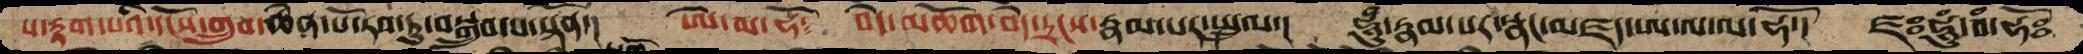ས་རྟག་པའི་དངོས་གྲུབ་ཆེན་པོ་རབ་ཏུ་བསྒྲུབ་པ་སྟོན་། ཨེ་མ་ཧོ་   བདེ་མཆོག་བདེ་དྲངས་རྣམ་པར་སྤྲུལ་།  ཧཱུཾ་རྣམ་པར་སྣང་མཛད་ཨ་ལ་ལ་ཧོ་།  ཛཿཧཱུཾ་བཾ་ཧོཿ
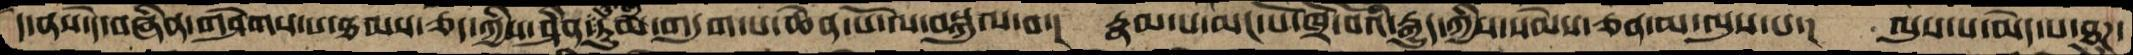དེ་ནས་དེ་བཞིན་གཤེགས་པ་ཐམས་ཅད་ཀྱིས་ཤིན་ཏུགཏུམ་གདུག་པ་ཆེན་པོ་ལ་བསྐུལ་བ་།  རྣམ་པ་མང་པོ་ཁྲོ་བོའི་རྒྱུད་ཀྱིས་སེམས་ཅན་མ་ལུས་པ་།  ལུས་པ་མེད་པ་ཐུཌ་
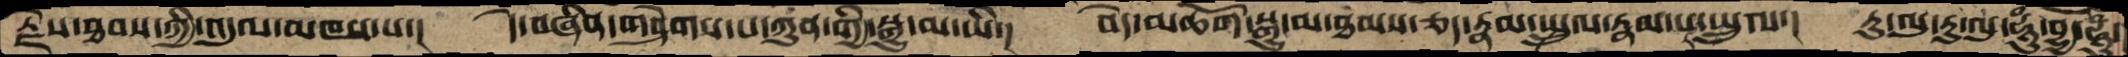རྗེས་ཐབས་ཀྱི་འདུལ་མཁས་པ་།  དེ་བཞིན་གཤེགས་པ་ཀུན་གྱི་སྒྱུ་མ་ཡི་།  བདེ་མཆོག་སྒྱུ་མ་ཐམས་ཅད་རྣམ་སྤྲུལ་རྣམ་པ་སྤྲུལ་།  རུ་ལུ་རུ་ལུ་ཧཱུཾ་བྷྱོ་ཧཱུཾ་
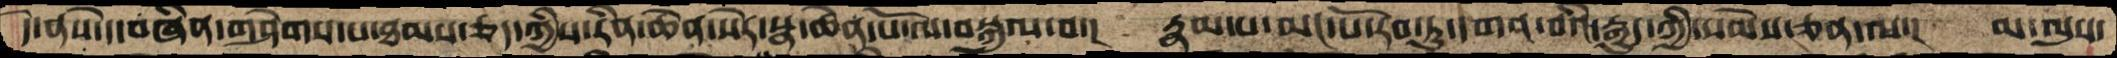དེ་ནས་དེ་བཞིན་གཤེགས་པ་ཐམས་ཅད་ཀྱིས་རིན་ཆེན་སེར་སྣ་ཆེན་པོ་ལ་བསྐུལ་བ་།  རྣམ་པ་མང་པོ་རབ་ཏུ་དགའ་བའི་རྒྱུད་ཀྱི་སེམས་ཅན་ལ་།  མ་ལུས་
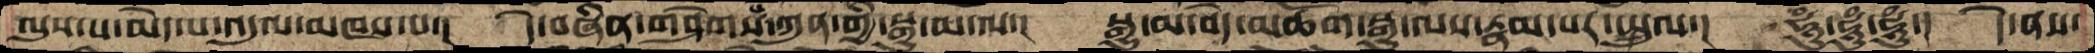ལུས་པ་མེད་པ་འདུལ་མཁས་པ་།  དེ་བཞིན་གཤེགས་པ་ཀུན་གྱི་སྒྱུ་མ་ལ་།  སྒྱུ་མ་བདེ་མཆོག་སྒྱུ་ལས་རྣམ་པར་སྤྲུལ་།  ཧཱུྃ་ཧཱུྃ་ཧཱུྃ་།  དེ་ནས་
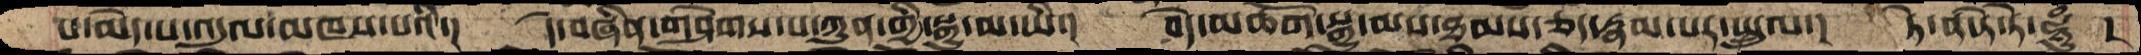པ་མེད་པ་འདུལ་མཁས་པའི་།  དེ་བཞིན་གཤེགས་པ་ཀུན་གྱི་སྒྱུ་མ་ཡི་།  བདེ་མཆོག་སྒྱུ་མས་ཐམས་ཅད་རྣམ་པར་སྤྲུལ་།  ཏེ་ན་ཏེ་ཏེ་ཧཱུཾ  །
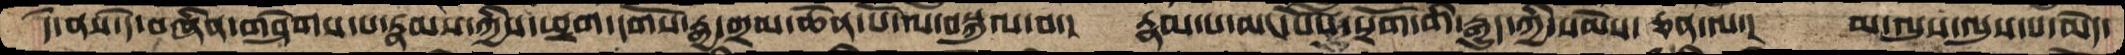དེ་ནས་དེ་བཞིན་གཤེགས་པ་རྣམས་ཀྱིས་ཕྲག་དོགས་རྒྱ་གྲམ་ཆེན་པོ་ལ་བསྐུལ་བ་།  རྣམ་པ་མང་པོས་སྲོག་གི་རྒྱུད་ཀྱི་སེམས་ཅན་ལ་།  མ་ལུས་ལུས་པ་མེད་
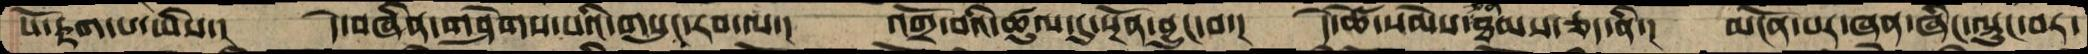སོ་རྟག་པ་ཡིས་།  དེ་བཞིན་གཤེགས་པའི་གསུང་རབ་ལ་།  འགྲོ་བའི་ཚུལ་དུ་སྔོན་བྱུང་བ་།  དེ་ཚེ་སེམས་ཅན་ཐམས་ཅད་ནི་།  མངོན་པར་ཞན་ཞིང་ལྟུང་བར་
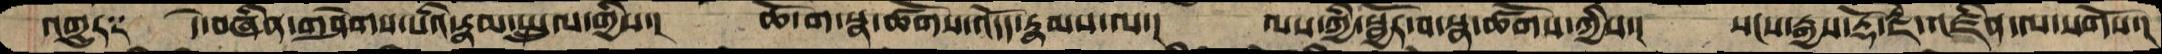འགྱུར༑   དེ་བཞིན་གཤེགས་པའི་རྣམ་སྤྲུལ་གྱིས་།  ཆོ་ག་སྣ་ཚོགས་འདོད་རྣམས་ལ་།  ལས་ཀྱི་སྦྱོར་བ་སྣ་ཚོགས་ཀྱིས་།  སངས་རྒྱས་རྡོ་རྗེ་འཛིན་ལ་སོགས་།
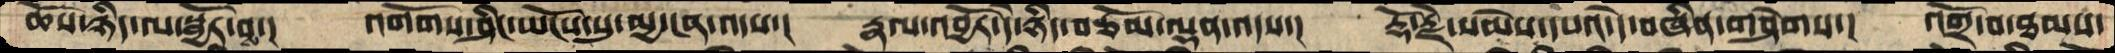ཆོས་ཉིད་ལ་སྦྱོར་བས་།  འགོགས་ཤིང་ཡོངས་སུ་མྱ་ངན་འདས་།  རྣལ་འབྱོར་དེ་ཉིད་བཅོམ་ལྡན་འདས་།  རྡོ་རྗེ་སེམས་དཔའ་དེ་བཞིན་གཤེགས་།  འགྲོ་བ་ཐམས་
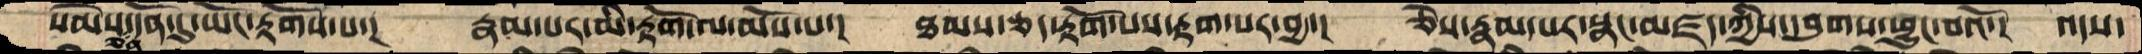སེམས་ཅན་དོན་དུ་ཡོང་རྟོགས་པ་།  རྣམ་པར་མི་རྟོག་ལ་མོས་པ་།  ཐམས་ཅད་རྟོག་པས་རྟག་པར་བྱ་།  ཅེས་རྣམ་པར་སྣང་མཛད་ཀྱིས་དབུགས་ཕྱུང་བའོ་།  འདས་
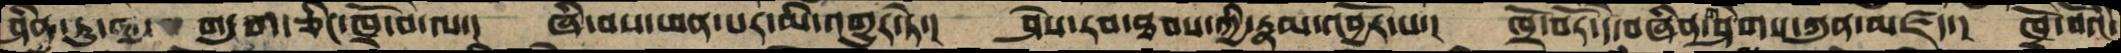ཤིན་ཏུ་  གདུག་ཅིང་ཁྲོ་བ་ལ་།  ཞི་བས་ཕན་པར་མི་འགྱུར་ཏེ་།  ཤེས་རབ་ཐབས་ཀྱི་རྣལ་འབྱོར་པ་།  ཁྲོ་བོར་དེ་བཞིན་གཤེགས་ཀུན་མཛད་།  ཁྲོ་བོའི་
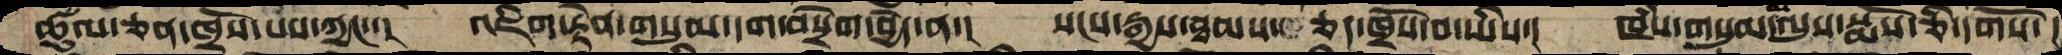ཚུལ་ཅན་ཁྲོས་པས་ཀྱང་་།  འཇིག་རྟེན་གསུམ་དག་བསྲེག་བྱེད་ན་། སངས་རྒྱས་ཐམས་ཅད་ཁྲོས་པ་ཡིས་།  ཁཾས་གསུམ་མ་ལུས་སྨོས་ཅི་དགོས་།
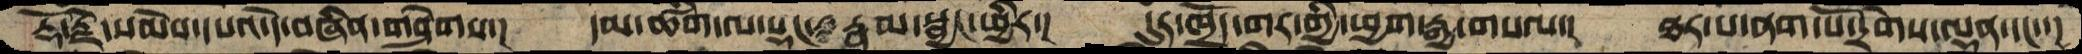རྡོ་རྗེ་སེམས་དཔའ་དེ་བཞིན་གཤེགས་།  དམ་ཚིག་ལ་སྡང་རྣམ་སྦྱང་ཕྱིར་།  དུར་ཁྲོད་གར་གྱི་ཕྱག་རྒྱ་གསལ་།  ཐར་པ་ནག་པོ་དྲེགས་ལྡན་དང་་།
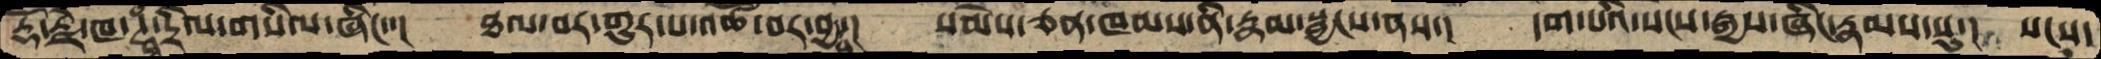རྡོ་རྗེ་ཁ་ཊྭཾ་དྲིལ་གསིལ་ཞིང་་།  ཐལ་བར་གྱུར་པ་འཚོ་བར་བྱས་།  སེམས་ཅན་ཁམས་ནི་རྣམ་སྦྱངས་ནས་།  དག་པའི་སངས་རྒྱས་ཞིང་རྣམས་སུ་།  སངས་
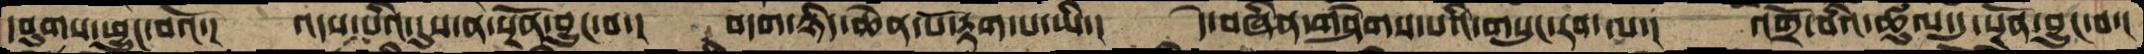དབུགས་ཕྱུང་བའོ་།  འདས་པའི་དུས་ན་སྔོན་བྱུང་བ་།  བདག་ཉིད་ཆེན་པོ་རྟག་པ་ཡི་།  དེ་བཞིན་གཤེགས་པའི་གསུང་རབ་ལ་།  འགྲོ་བའི་ཚུལ་དུ་སྔོན་བྱུང་བ་
